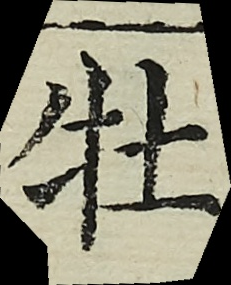牡
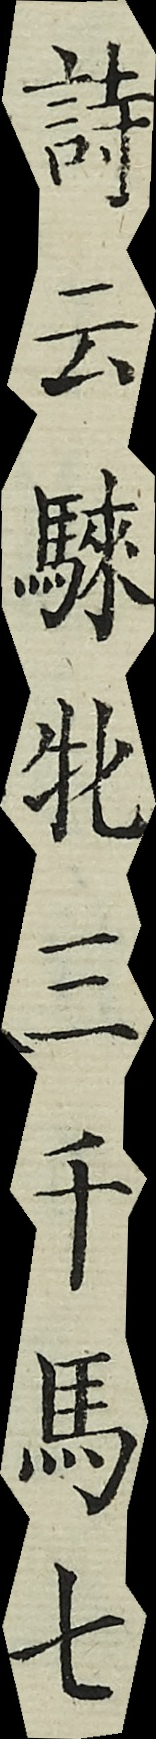詩云騋牝三千馬七
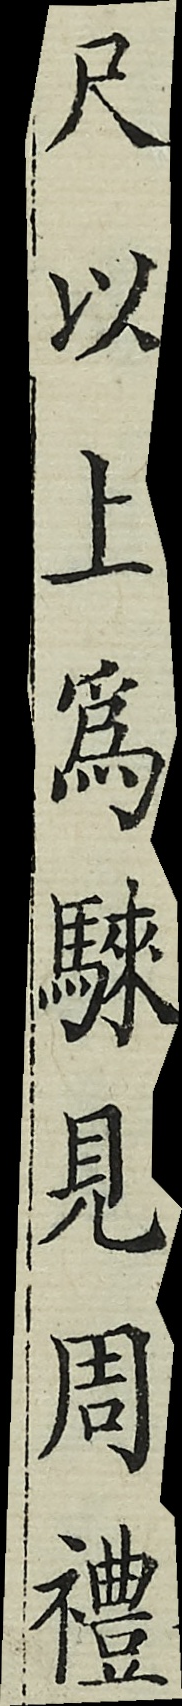尺以上為騋見周禮
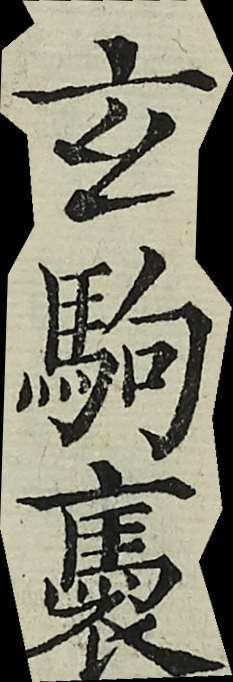玄駒褭
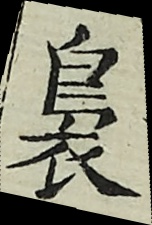裊
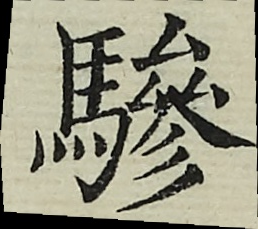驂
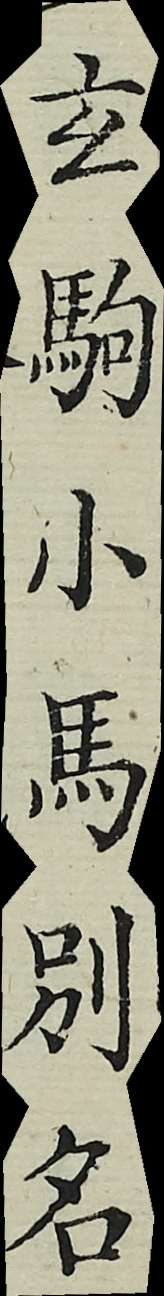玄駒小馬別名
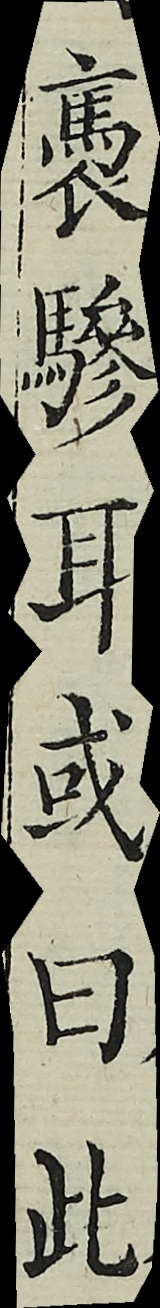褭驂耳或曰此
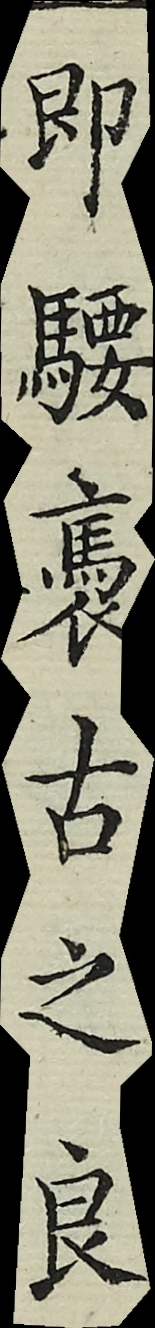即騕褭古之良
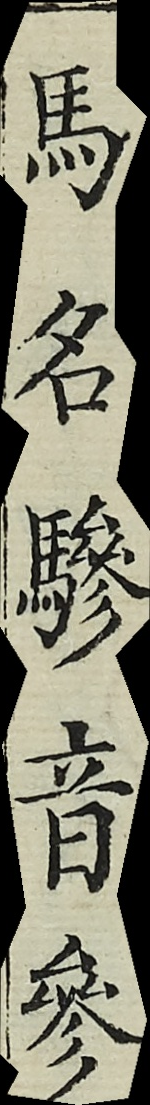馬名驂音參
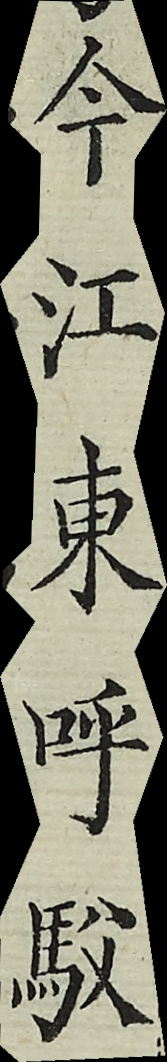今江東呼䭸
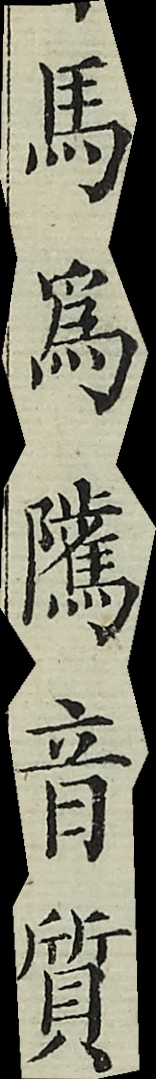馬為騭音質
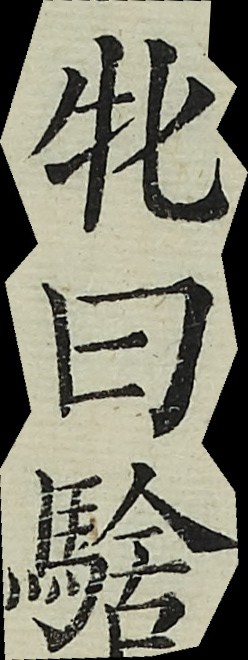牝曰騇
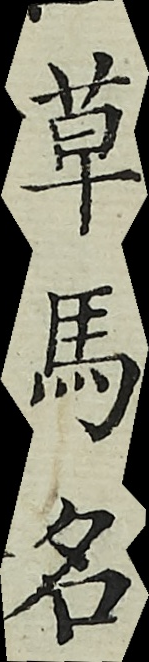草馬名
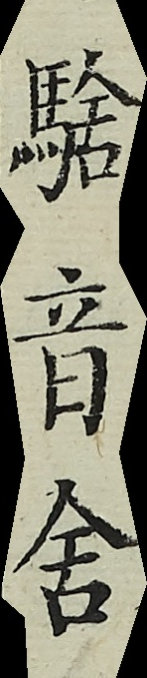騇音舍
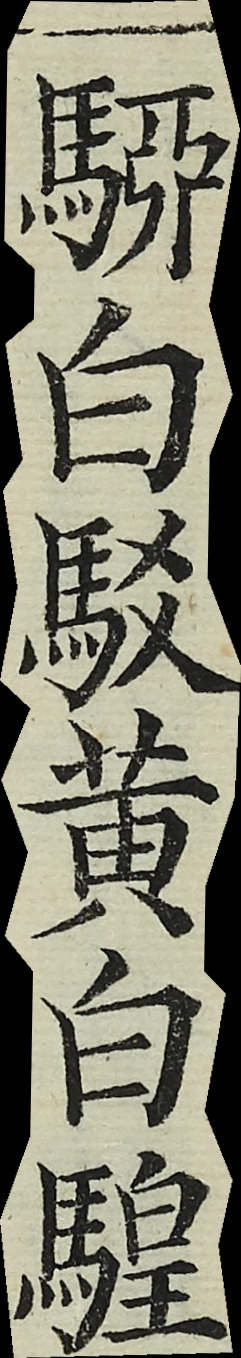駵白駁黃白騜
